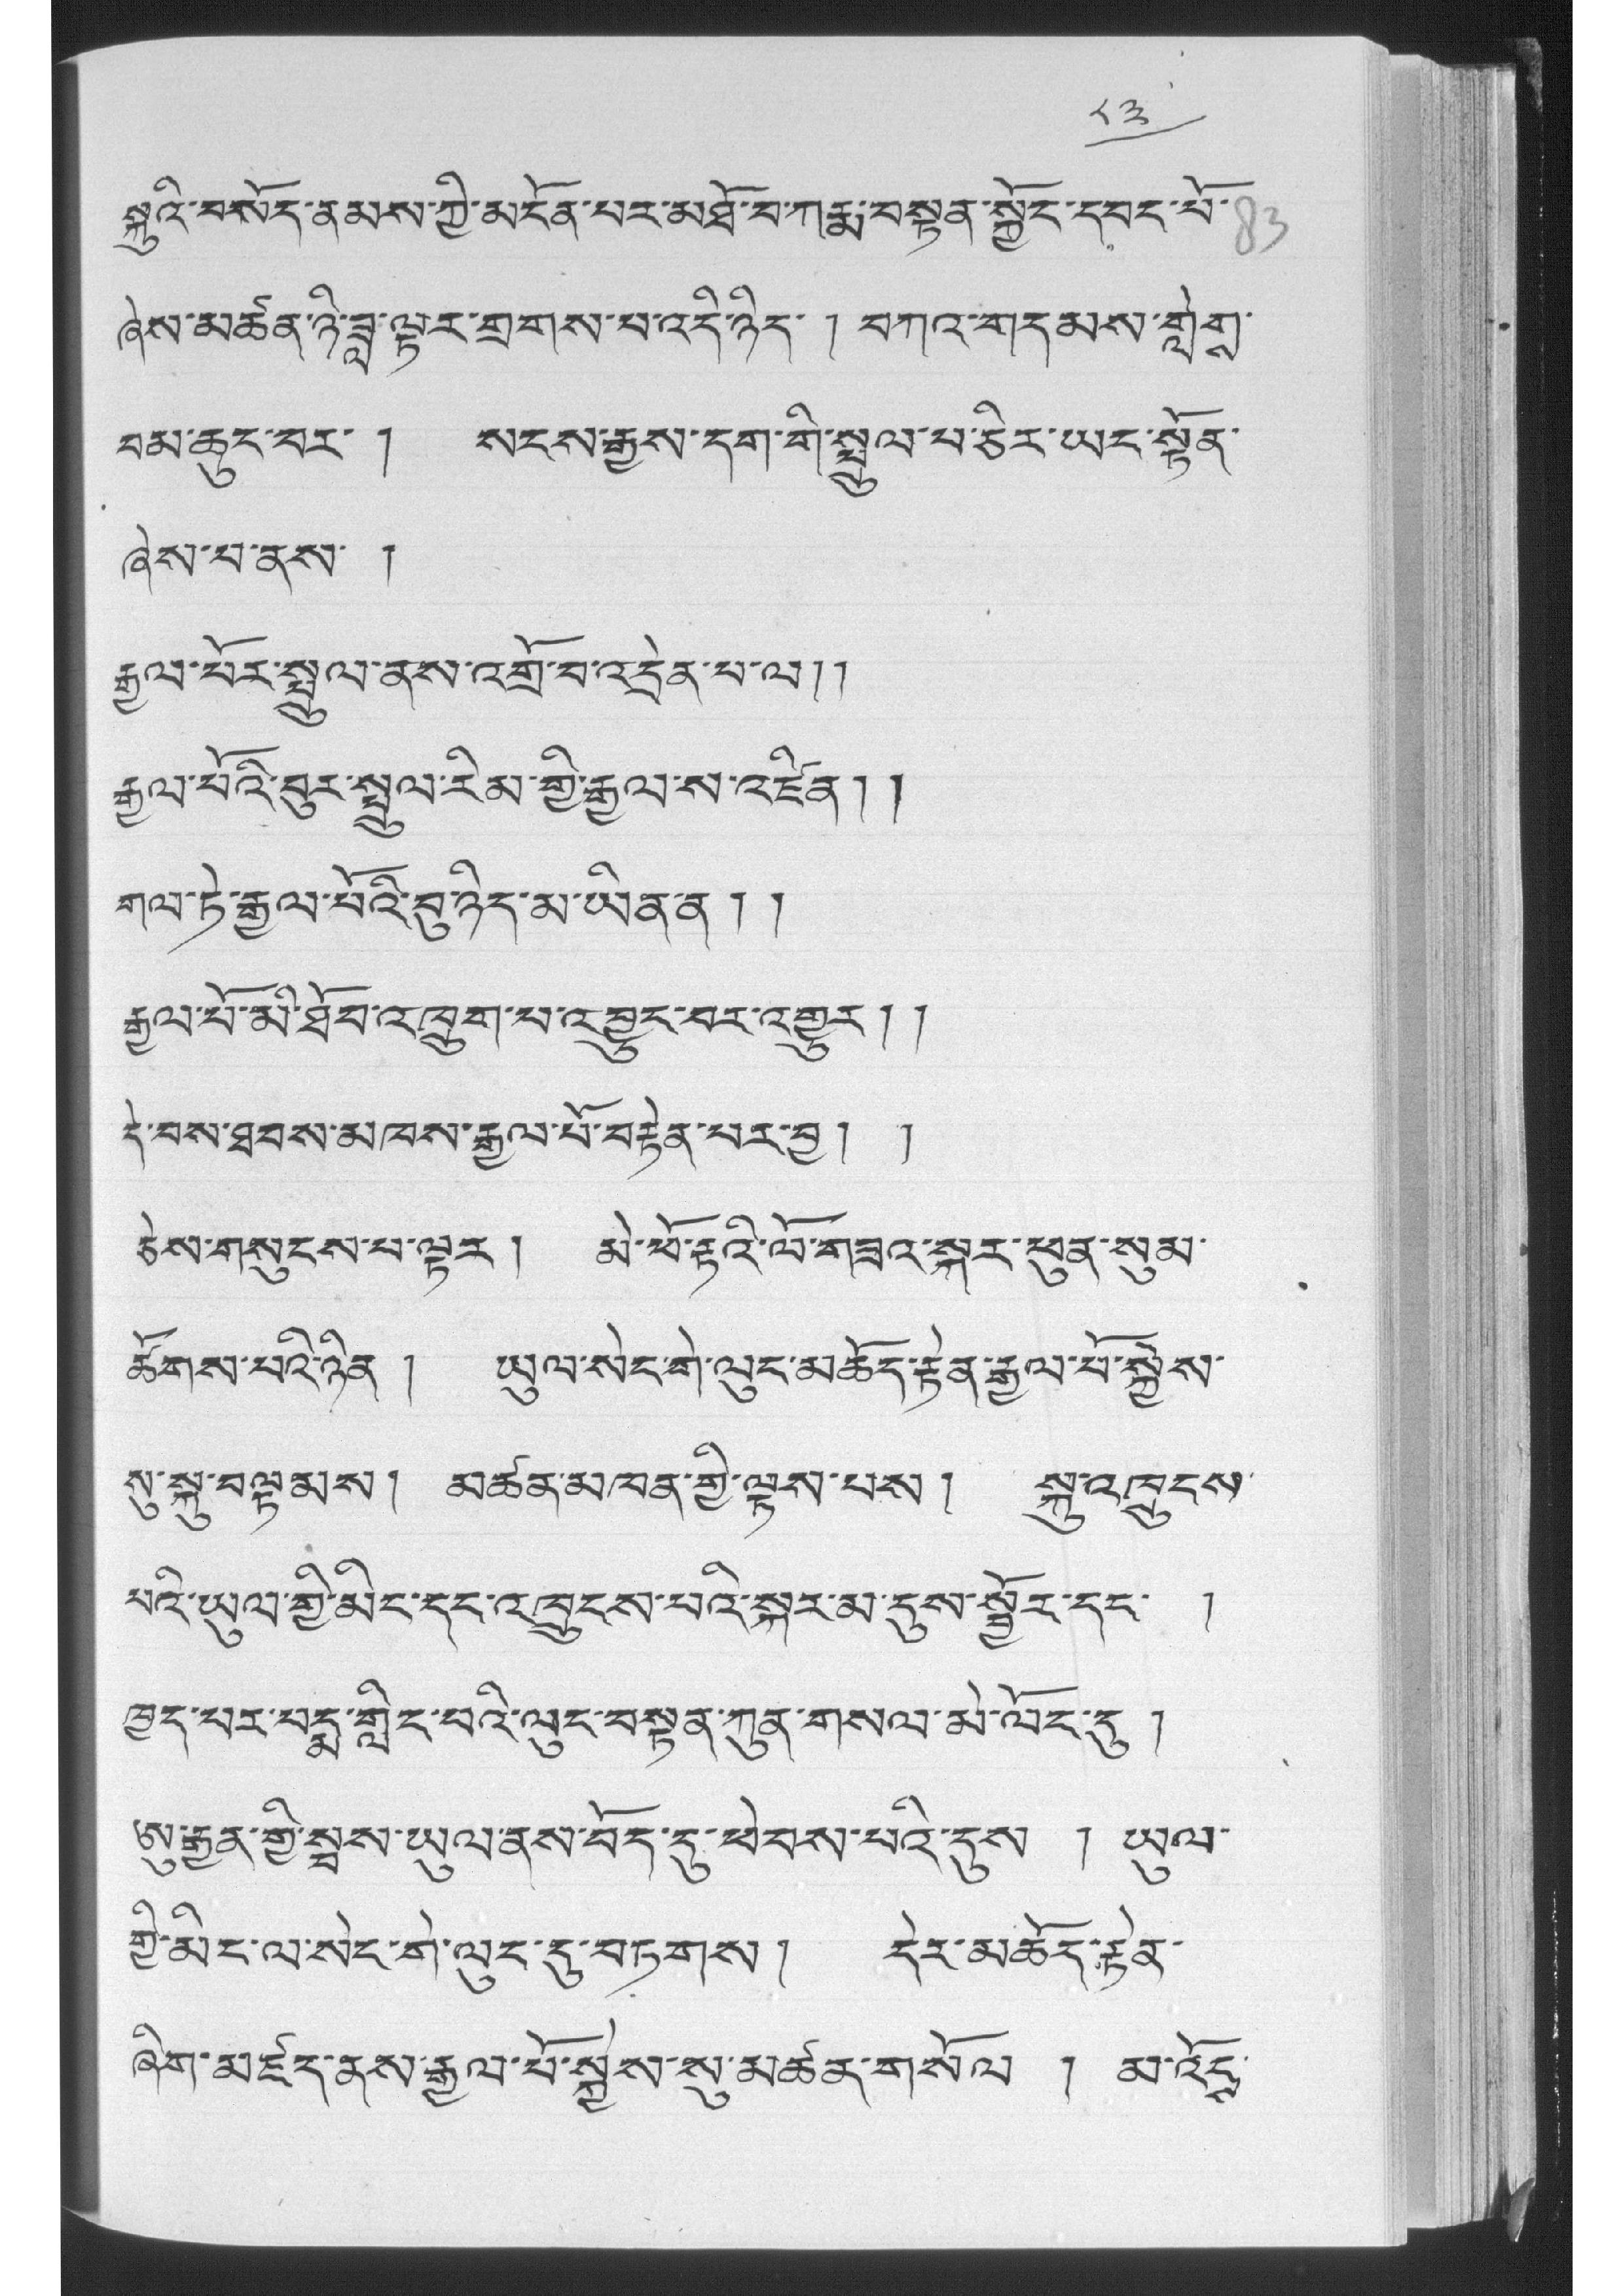༨༣
སྐུའི་བསོད་ནམས་ཀྱི་མངོན་པར་མཐོ་བ་ཀརྨ་བསྟན་སྐྱོང་དབང་པོ་
ཞེས་མཚན་ཉི་ཟླ་ལྟར་གྲགས་པ་འདི་ཉིད་ ། བཀའ་གདམས་གླེགས་
བམ་ཆུང་བར་ ། སངས་རྒྱས་དག་གི་སྤྲུལ་པ་ཅིར་ཡང་སྟོན་
ཞེས་པ་ནས་ །
རྒྱལ་པོར་སྤྲུལ་ནས་འགྲོ་བ་འདྲེན་པོ་ལ།།
རྒྱལ་པོའི་བུར་སྤྲུལ་རིམ་གྱི་རྒྱལ་ས་འཛིན།།
གལ་ཏེ་རྒྱལ་པོའི་བུ་ཉིད་མ་ཡིན་ན།།
རྒྱལ་པོ་མི་ཐོབ་འཁྲུག་པ་འབྱུང་བར་འགྱུར།།
དེ་བས་ཐབས་མཁས་རྒྱལ་པོ་བརྟེན་པར་བྱ། །
ཅེས་གསུངས་པ་ལྟར། མེ་ཕོ་རྟའི་ལོ་གཟའ་སྐར་ཕུན་སུམ་
ཚོགས་པའི་ཉིན ། ཡུལ་སེང་གེ་ལུང་མཆོད་རྟེན་རྒྱལ་པོ་སྐྱེས་
སུ་སྐུ་བལྟམས། མཚན་མཁན་གྱི་ལྟས་པས། སྐུ་འཁྲུངས་
པའི་ཡུལ་གྱི་མིང་དང་འཁྲུངས་པའི་སྐར་མ་དུས་སྦྱོར་དང་ །
ཁྱད་པར་པདྨ་གླིང་པའི་ལུང་བསྟན་ཀུན་གསལ་མེ་ལོང་དུ །
ཨུ་རྒྱན་གྱི་སྦས་ཡུལ་ནས་བོད་དུ་ཕེབས་པའི་དུས ། ཡུལ་
གྱི་མིང་ལ་སེང་གེ་ལུང་དུ་བཏགས། དེར་མཆོད་རྟེན་
ཞིག་མཛད་ནས་རྒྱལ་པོ་སྐྱེས་སུ་མཚན་གསོལ ། མ་འོངས་
